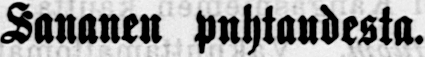Sananen puhtaudesta.
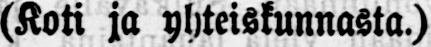(Koti ja yhteiskunnasta.)
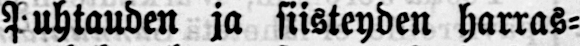Puhtauden ja siisteyden harras-
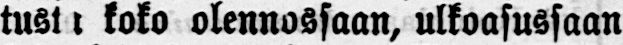tusta koko olennossaan, ulkoasussaan
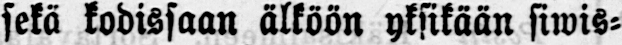sekö kodissaan älköön yksikään siwis-
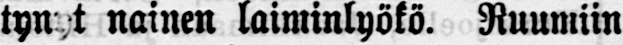tynyt nainen laiminlyökö. Ruumiin
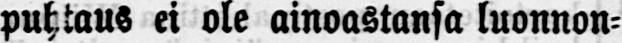puhtaus ei ole ainoastansa luonnon-
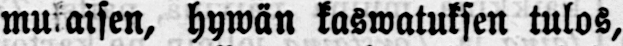mukaisen, hyäwn kaswatuksen tulos,
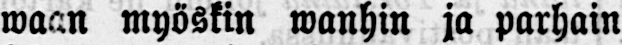maan myöskin wanhin ja parhain
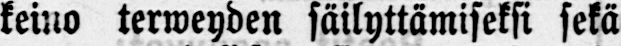keino terweyden säilyttämiseksi sekä
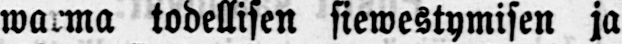warma todellisen siewestymisen ja
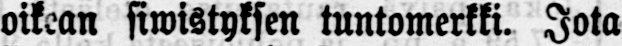oikean siwistyksen tuntomerkki. Jota
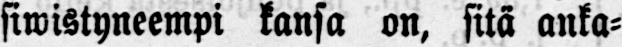siwistyneempi kansa on, sitä anka-
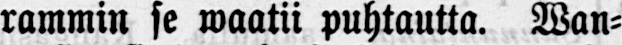rammin se waatii puhtautta. Wan-
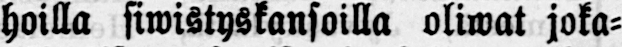hoilla siwistyskansoilla oliwat joka-
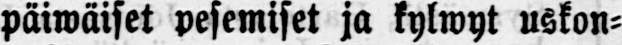päiwaiset pesemiset ja kylwyt uskon-
